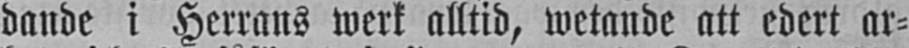dande i Herrans werk alltid, wetande att edert ar-
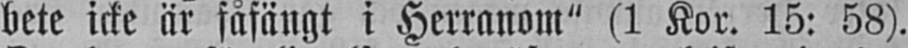bete icke är fåfängt i Herranom" (1 Kor. 15: 58).
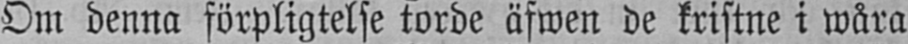Om denna förpligtelse torde äfwen de kristne i wåra
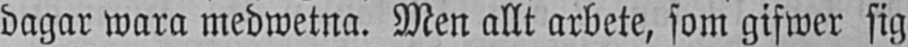dagar wara medwetna. Men allt arbete, som gifwer sig
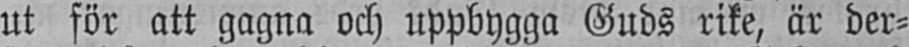ut för att gagna och uppbygga Guds rike, är der-
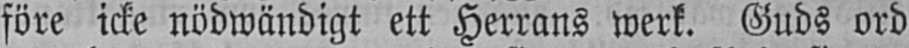före icke nödwändigt ett Herrans werk. Guds ord
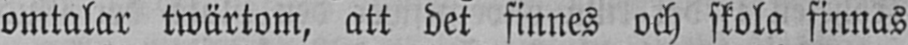omtalar twärtom, att det finnes och skola finnas
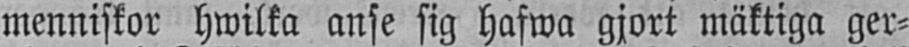menniskor hwilka anse sig hafwa gjort mäktiga ger-
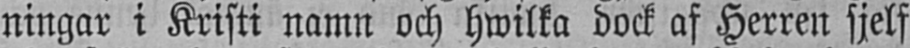ningar i Kristi namn och hwilka dock af Herren sjelf
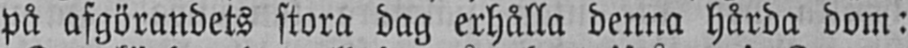på afgörandets stora dag erhålla denna hårda dom:
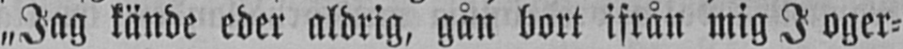„Jag kände eder aldrig, gån bort ifrån mig I oger-
